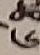༦
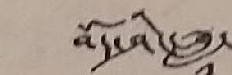བོད་ཤིང་ཟླ་
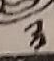༡༡
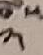༢
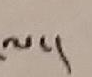ལ་།
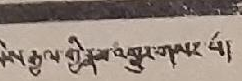མེས་རྒྱལ་གྱི་རྣམ་འགྱུར་གསར་པ་
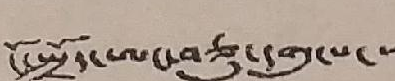ངོ་སྤྲོད་ཨང་བཅུ་དགུ་པ་
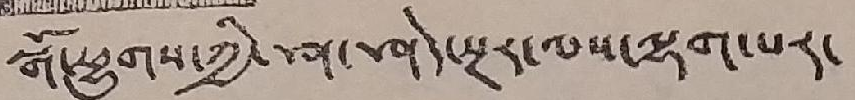སྒོ་ཕྱུགས་ཀྱི་ཤ་ཤེད་སྔར་ལས་ལྷག་པར་
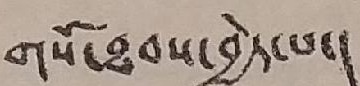གསོ་ཐབས་བྱེད་པ་།
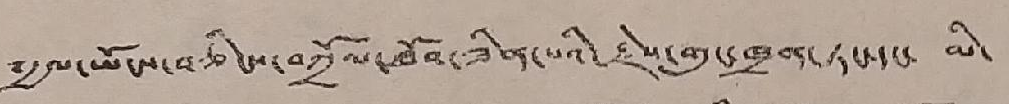༸རྒྱལ་ཡོངས་བཅིངས་བཀྲོལ་ཐོབ་ཟིན་པའི་རྗེས་གུང་ཁྲན་ཏང་དང་ མི་
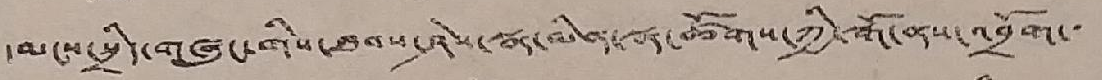དམངས་སྲིད་གཞུང་གིས་ཐབས་ཤེས་སྣ་མིན་སྣ་ཚོགས་ཀྱི་སྒོ་ནས་འབྲོག་་
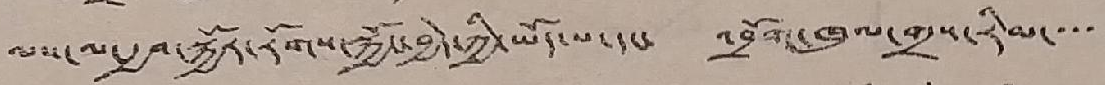ལས་ལ་རྒྱབ་སྐྱོར་རོགས་སྐྱོང་བྱེད་ཀྱི་ཡོད་པ་དང་ འབྲོག་ཁུལ་གྲས་རིམ་་་་
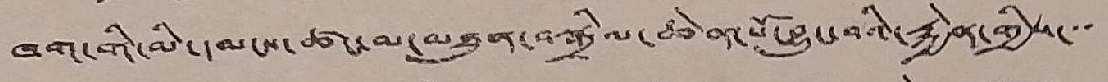ཁག་གི་མི་དམངས་ཚང་མ་མཐུན་བསྒྲིལ་ཆེན་པོ་བྱུང་བའི་རྐྱེན་གྱིས་་་
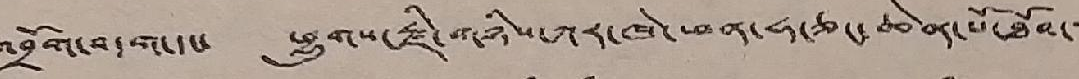འབྲོག་བདག་དང་ ཕྱུགས་རྫི་གཉིས་ཀར་ཁེ་ཕན་ཧ་ཅང་ཆེན་པོ་ཐོབ་
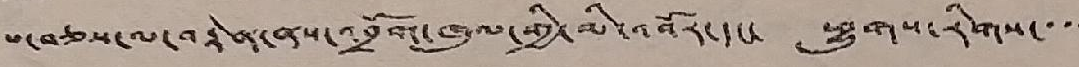པ་བཅས་ལ་བརྟེན་ནས་འབྲོག་ཁུལ་གྱི་མི་འབོར་དང་ ཕྱུགས་རིགས་་་་
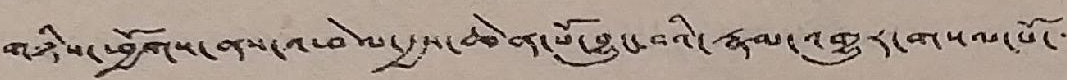གཉིས་ཕྱོགས་ནས་འཕེལ་རྒྱས་ཆེན་པོ་བྱུང་བའི་རྣམ་འགྱུར་གསལ་པོ་་་
